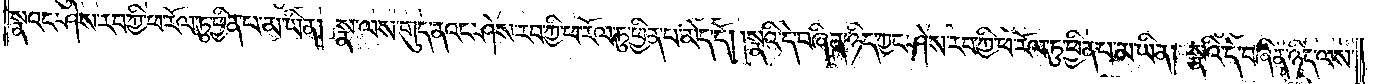སྣའང་ཤེས་རབ་ཀྱི་ཕ་རོལ་ཏུ་ཕྱིན་པ་མ་ཡིན། སྣ་ལས་གུད་ནའང་ཤེས་རབ་ཀྱི་ཕ་རོལ་ཏུ་ཕྱིན་པ་མེད་དོ། །སྣའི་དེ་བཞིན་ཉིད་ཀྱང་ཤེས་རབ་ཀྱི་ཕ་རོལ་ཏུ་ཕྱིན་པ་མ་ཡིན། སྣའི་དེ་བཞིན་ཉིད་ལས་
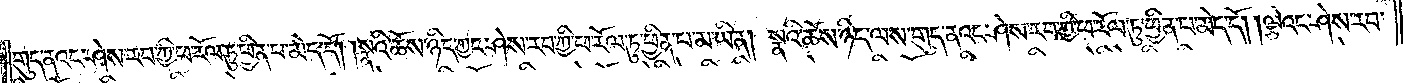གུད་ནའང་ཤེས་རབ་ཀྱི་ཕ་རོལ་ཏུ་ཕྱིན་པ་མེད་དོ། །སྣའི་ཆོས་ཉིད་ཀྱང་ཤེས་རབ་ཀྱི་ཕ་རོལ་ཏུ་ཕྱིན་པ་མ་ཡིན། སྣའི་ཆོས་ཉིད་ལས་གུད་ནའང་ཤེས་རབ་ཀྱི་ཕ་རོལ་ཏུ་ཕྱིན་པ་མེད་དོ། ། ལྕེའང་ཤེས་རབ་
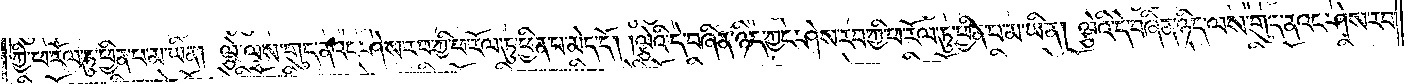ཀྱི་ཕ་རོལ་ཏུ་ཕྱིན་པ་མ་ཡིན། ལྕེ་ལས་གུད་ནའང་ཤེས་རབ་ཀྱི་ཕ་རོལ་ཏུ་ཕྱིན་པ་མེད་དོ། །ལྕེའི་དེ་བཞིན་ཉིད་ཀྱང་ཤེས་རབ་ཀྱི་ཕ་རོལ་ཏུ་ཕྱིན་པ་མ་ཡིན། ལྕེའི་དེ་བཞིན་ཉིད་ལས་གུད་ནའང་ཤེས་རབ་
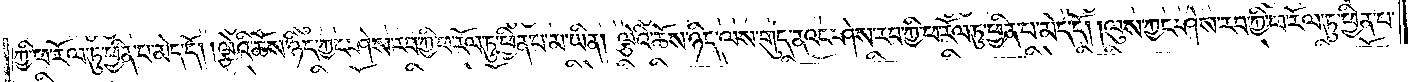ཀྱི་ཕ་རོལ་ཏུ་ཕྱིན་པ་མེད་དོ། །ལྕེའི་ཆོས་ཉིད་ཀྱང་ཤེས་རབ་ཀྱི་ཕ་རོལ་ཏུ་ཕྱིན་པ་མ་ཡིན། ལྕེའི་ཆོས་ཉིད་ལས་གུད་ནའང་ཤེས་རབ་ཀྱི་ཕ་རོལ་ཏུ་ཕྱིན་པ་མེད་དོ། །ལུས་ཀྱང་ཤེས་རབ་ཀྱི་ཕ་རོལ་ཏུ་ཕྱིན་པ་
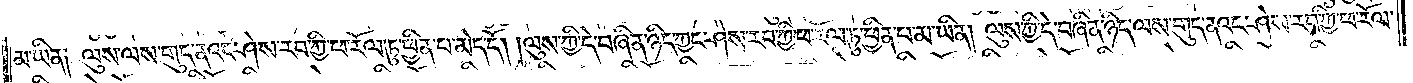མ་ཡིན། ལུས་ལས་གུད་ནའང་ཤེས་རབ་ཀྱི་ཕ་རོལ་ཏུ་ཕྱིན་པ་མེད་དོ། །ལུས་ཀྱི་དེ་བཞིན་ཉིད་ཀྱང་ཤེས་རབ་ཀྱི་ཕ་རོལ་ཏུ་ཕྱིན་པ་མ་ཡིན། ལུས་ཀྱི་དེ་བཞིན་ཉིད་ལས་གུད་ནའང་ཤེས་རབ་ཀྱི་ཕ་རོལ་
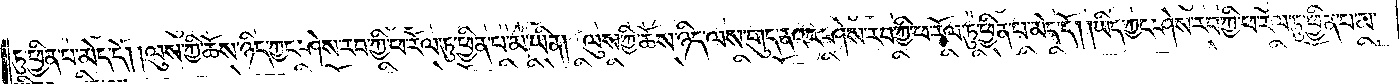ཏུ་ཕྱིན་པ་མེད་དོ། །ལུས་ཀྱི་ཆོས་ཉིད་ཀྱང་ཤེས་རབ་ཀྱི་ཕ་རོལ་ཏུ་ཕྱིན་པ་མ་ཡིན། ལུས་ཀྱི་ཆོས་ཉིད་ལས་གུད་ནའང་ཤེས་རབ་ཀྱི་ཕ་རོལ་ཏུ་ཕྱིན་པ་མེད་དོ། །ཡིད་ཀྱང་ཤེས་རབ་ཀྱི་ཕ་རོལ་ཏུ་ཕྱིན་པ་མ་
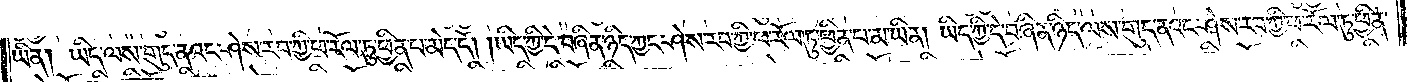ཡིན། ཡིད་ལས་གུད་ནའང་ཤེས་རབ་ཀྱི་ཕ་རོལ་ཏུ་ཕྱིན་པ་མེད་དོ། །ཡིད་ཀྱི་དེ་བཞིན་ཉིད་ཀྱང་ཤེས་རབ་ཀྱི་ཕ་རོལ་ཏུ་ཕྱིན་པ་མ་ཡིན། ཡིད་ཀྱི་དེ་བཞིན་ཉིད་ལས་གུད་ནའང་ཤེས་རབ་ཀྱི་ཕ་རོལ་ཏུ་ཕྱིན་
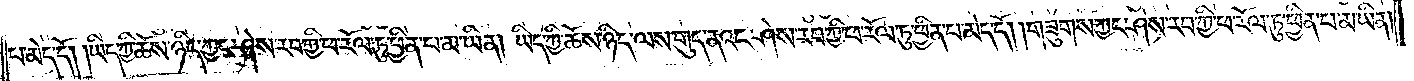པ་མེད་དོ། །ཡིད་ཀྱི་ཆོས་ཉིད་ཀྱང་ཤེས་རབ་ཀྱི་ཕ་རོལ་ཏུ་ཕྱིན་པ་མ་ཡིན། ཡིད་ཀྱི་ཆོས་ཉིད་ལས་གུད་ནའང་ཤེས་རབ་ཀྱི་ཕ་རོལ་ཏུ་ཕྱིན་པ་མེད་དོ། །གཟུགས་ཀྱང་ཤེས་རབ་ཀྱི་ཕ་རོལ་ཏུ་ཕྱིན་པ་མ་ཡིན།
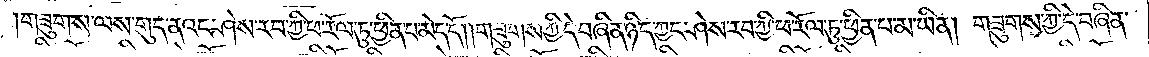གཟུགས་ལས་གུད་ནའང་ཤེས་རབ་ཀྱི་ཕ་རོལ་ཏུ་ཕྱིན་པ་མེད་དོ། །གཟུགས་ཀྱི་དེ་བཞིན་ཉིད་ཀྱང་ཤེས་རབ་ཀྱི་ཕ་རོལ་ཏུ་ཕྱིན་པ་མ་ཡིན། གཟུགས་ཀྱི་དེ་བཞིན་
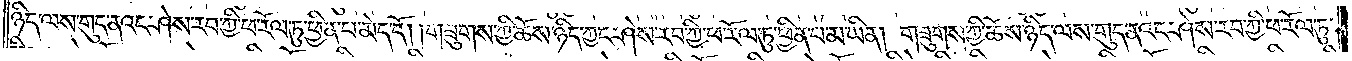ཉིད་ལས་གུད་ནའང་ཤེས་རབ་ཀྱི་ཕ་རོལ་ཏུ་ཕྱིན་པ་མེད་དོ། །གཟུགས་ཀྱི་ཆོས་ཉིད་ཀྱང་ཤེས་རབ་ཀྱི་ཕ་རོལ་ཏུ་ཕྱིན་པ་མ་ཡིན། གཟུགས་ཀྱི་ཆོས་ཉིད་ལས་གུད་ནའང་ཤེས་རབ་ཀྱི་ཕ་རོལ་ཏུ་
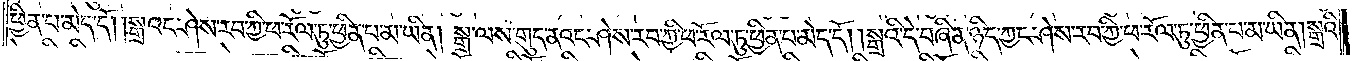ཕྱིན་པ་མེད་དོ། །སྒྲའང་ཤེས་རབ་ཀྱི་ཕ་རོལ་ཏུ་ཕྱིན་པ་མ་ཡིན། སྒྲ་ལས་གུད་ནའང་ཤེས་རབ་ཀྱི་ཕ་རོལ་ཏུ་ཕྱིན་པ་མེད་དོ། །སྒྲའི་དེ་བཞིན་ཉིད་ཀྱང་ཤེས་རབ་ཀྱི་ཕ་རོལ་ཏུ་ཕྱིན་པ་མ་ཡིན། སྒྲའི་
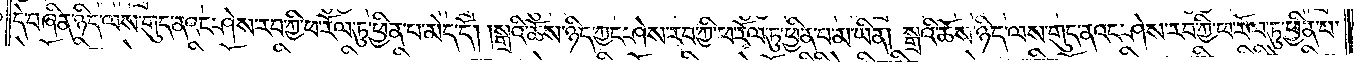དེ་བཞིན་ཉིད་ལས་གུད་ནའང་ཤེས་རབ་ཀྱི་ཕ་རོལ་ཏུ་ཕྱིན་པ་མེད་དོ། །སྒྲའི་ཆོས་ཉིད་ཀྱང་ཤེས་རབ་ཀྱི་ཕ་རོལ་ཏུ་ཕྱིན་པ་མ་ཡིན། སྒྲའི་ཆོས་ཉིད་ལས་གུད་ནའང་ཤེས་རབ་ཀྱི་ཕ་རོལ་ཏུ་ཕྱིན་པ་
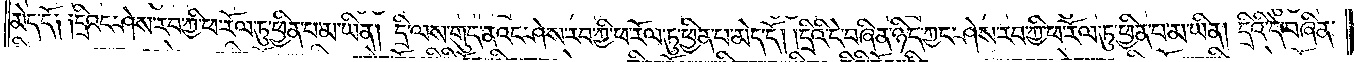མེད་དོ། །དྲིའང་ཤེས་རབ་ཀྱི་ཕ་རོལ་ཏུ་ཕྱིན་པ་མ་ཡིན། དྲི་ལས་གུད་ནའང་ཤེས་རབ་ཀྱི་ཕ་རོལ་ཏུ་ཕྱིན་པ་མེད་དོ། །དྲིའི་དེ་བཞིན་ཉིད་ཀྱང་ཤེས་རབ་ཀྱི་ཕ་རོལ་ཏུ་ཕྱིན་པ་མ་ཡིན། དྲིའི་དེ་བཞིན་
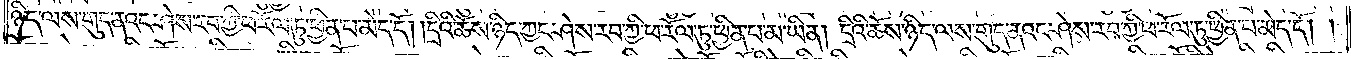ཉིད་ལས་གུད་ནའང་ཤེས་རབ་ཀྱི་ཕ་རོལ་ཏུ་ཕྱིན་པ་མེད་དོ། །དྲིའི་ཆོས་ཉིད་ཀྱང་ཤེས་རབ་ཀྱི་ཕ་རོལ་ཏུ་ཕྱིན་པ་མ་ཡིན། དྲིའི་ཆོས་ཉིད་ལས་གུད་ནའང་ཤེས་རབ་ཀྱི་ཕ་རོལ་ཏུ་ཕྱིན་པ་མེད་དོ། །
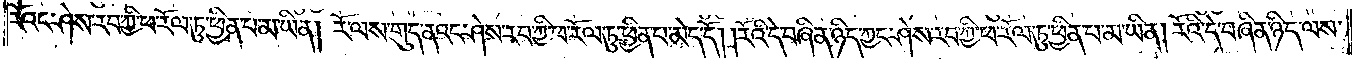རོའང་ཤེས་རབ་ཀྱི་ཕ་རོལ་ཏུ་ཕྱིན་པ་མ་ཡིན། རོ་ལས་གུད་ནའང་ཤེས་རབ་ཀྱི་ཕ་རོལ་ཏུ་ཕྱིན་པ་མེད་དོ། །རོའི་དེ་བཞིན་ཉིད་ཀྱང་ཤེས་རབ་ཀྱི་ཕ་རོལ་ཏུ་ཕྱིན་པ་མ་ཡིན། རོའི་དེ་བཞིན་ཉིད་ལས་
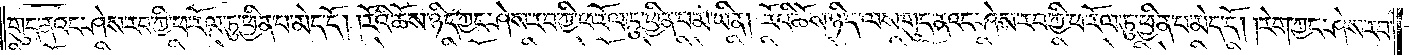གུད་ནའང་ཤེས་རབ་ཀྱི་ཕ་རོལ་ཏུ་ཕྱིན་པ་མེད་དོ། །རོའི་ཆོས་ཉིད་ཀྱང་ཤེས་རབ་ཀྱི་ཕ་རོལ་ཏུ་ཕྱིན་པ་མ་ཡིན། རོའི་ཆོས་ཉིད་ལས་གུད་ནའང་ཤེས་རབ་ཀྱི་ཕ་རོལ་ཏུ་ཕྱིན་པ་མེད་དོ། ། རེག་ཀྱང་ཤེས་རབ་
